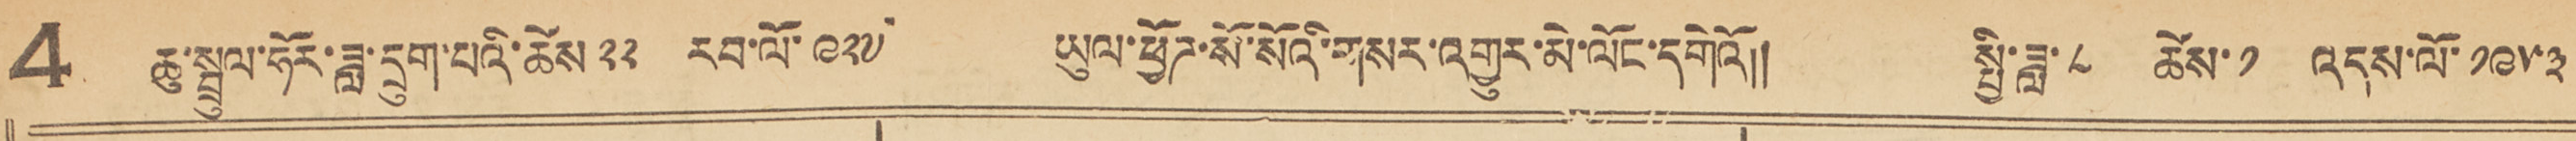4 ཆུ་སྦྲུལ་ཧོར་ཟླ་དྲུག་པའི་ཚེས་ ༢༢ རབ་ལོ་ ༩༢༧ ཡུལ་ཕྱོཌ་སོ་སོའི་གསར་འགྱུར་མེ་ལོང་དགེའོ།། སྤྱི་ཟླ་ ༨ ཚེས་༡ འདས་ལོ་༡༩༥༣
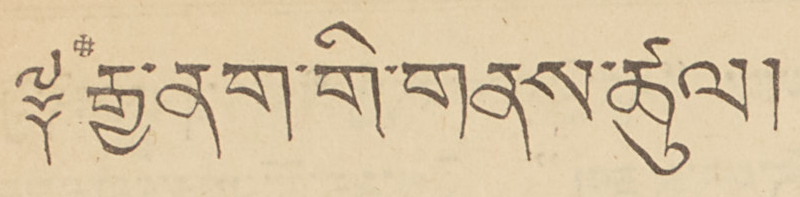༈ རྒྱ་ནག་གི་གནས་ཚུལ།
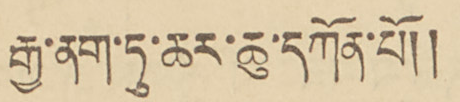རྒྱ་ནག་ཏུ་ཆར་ཆུ་དཀོན་པོ།།
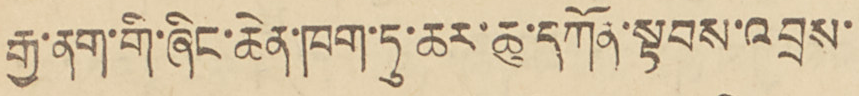རྒྱ་ནག་གི་ཞིང་ཆེན་ཁག་ཏུ་ཆར་ཆུ་དཀོན་སྟབས་འབྲས་
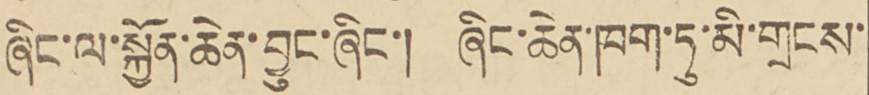ཞིང་ལ་སྐྱོན་ཆེན་བྱུང་ཞིང་། ཞིང་ཆེན་ཁག་ཏུ་མི་གྲངས་
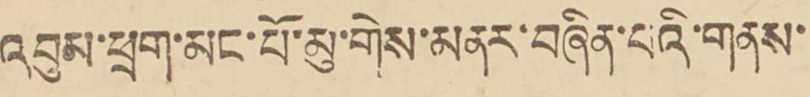འབུམ་ཕྲག་མང་པོ་མུ་གེས་མནར་བཞིན་པའི་གནས་
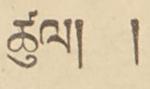ཚུལ། །
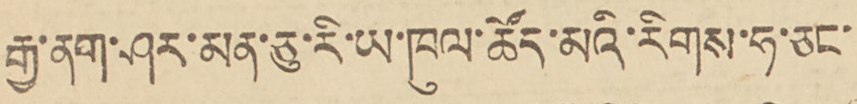རྒྱ་ནག་ཤར་མན་ཅུ་རི་ཡ་ཁུལ་ཚོད་མའི་རིགས་ཧ་ཅང་
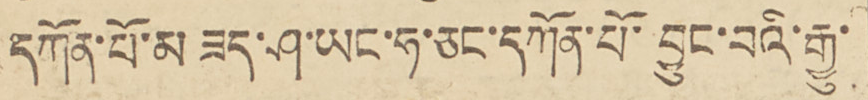དཀོན་པོ་མ་ཟད་ཤ་ཡང་ཧ་ཅང་དཀོན་པོ་བྱུང་བའི་རྒྱུ་
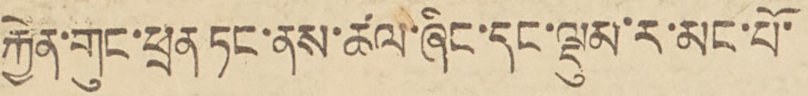རྐྱེན་གུང་ཕྲན ཏང་ནས་ཚལ་ཞིང་དང་སྡུམ་ར་མང་པོ་
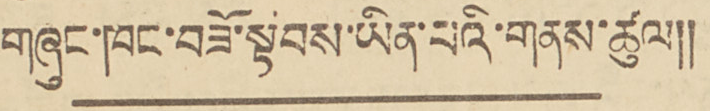གཞུང་ཁང་བཟོ་སྟབས་ཡིན་པའི་གནས་ཚུལ།།
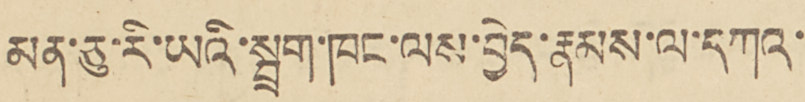མན་ཅུ་རི་ཡའི་སྦྲག་ཁང་ལས་བྱེད་རྣམས་ལ་དཀའ་
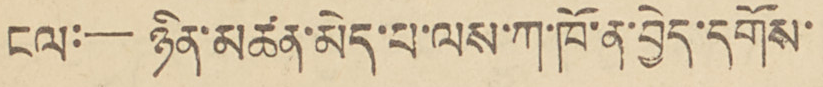ངལ:—ཉིན་མཚན་མེད་པ་ལས་ཀ་ཁོ་ན་བྱེད་དགོས་
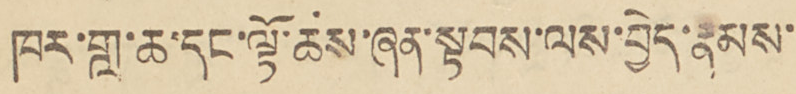ཁར་གླ་ཆ་དང་ལྟོ་ཆས་ཞན་སྟབས་ལས་བྱེད་རྣམས་
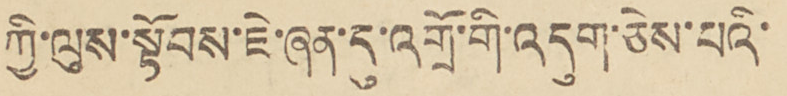ཀྱི་ལུས་སྟོབས་ཇེ་ཞན་དུ་འགྲོ་གི་འདུག་ཅེས་པའི་
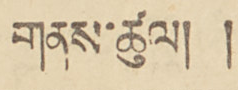གནས་ཚུལ། །
